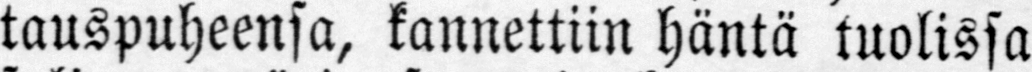tauspuheensa, kannettiin häntä tuolissa
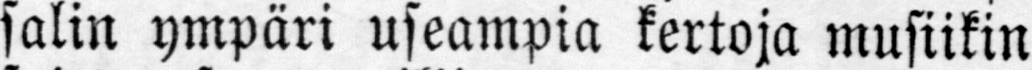salin ympäri useampia kertoja musiikin
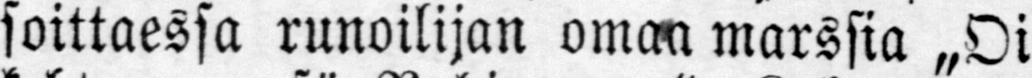soittaessa runoilijan oman marssia „Oi
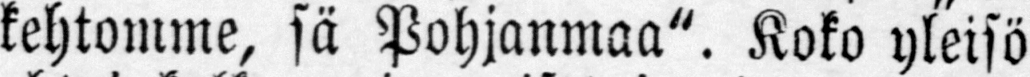kehtomme, sä Pohjanmaa". Koko yleisö
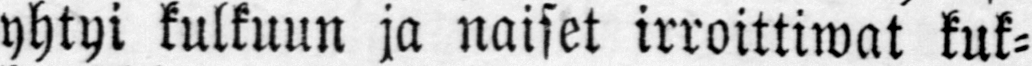yhtyi kulkuun ja naiset irroittiwat kuk-
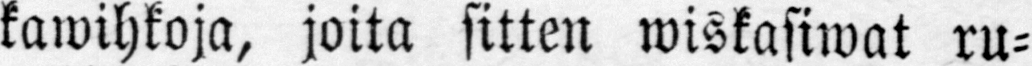kawihkoja, joita sitten wiskasiwat ru-
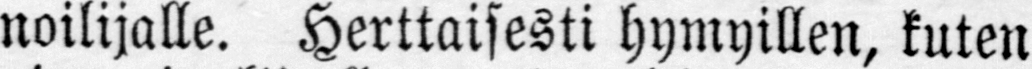noilijalle. Herttaisesti hymyillen, kuten
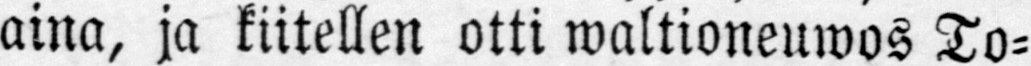aina, ja kiitellen otti waltioneuwos To-
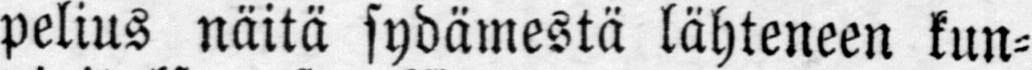pelius näitä sydämestä lähteneen kun-
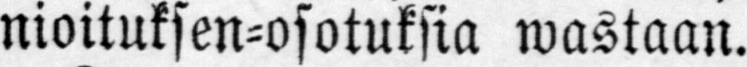nioituksen-osotuksia wustaan.
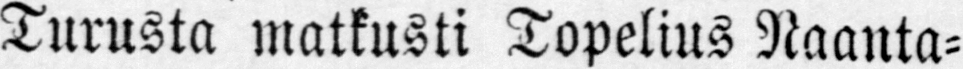Turusta matkusti Topelius Naanta-
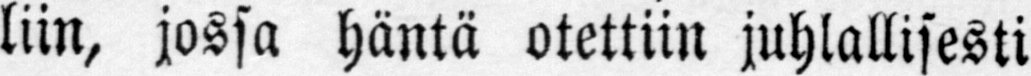liin, jossa häntä otettiin juhlallisesti
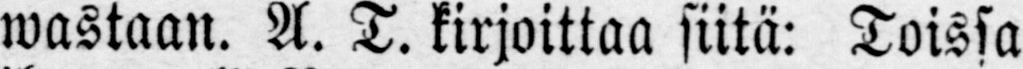wastaan. A. T. kirjoittaa siitä: Toissa
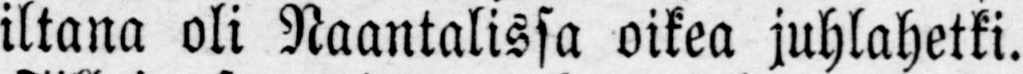iltana oli Naantalissa oikea juhlahetki.
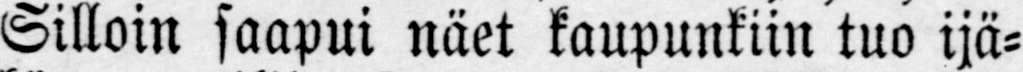Silloin saapui näet kaupunkiin tuo ijä-
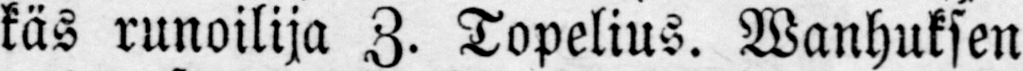käs runoilija Z. Topelius. Wanhuksen
